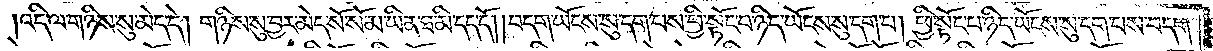འདི་ལ་གཉིས་སུ་མེད་དེ། གཉིས་སུ་བྱར་མེད་སོ་སོ་མ་ཡིན་ཐ་མི་དད་དོ། །བདག་ཡོངས་སུ་དག་པས་ཕྱི་སྟོང་པ་ཉིད་ཡོངས་སུ་དག་པ། ཕྱི་སྟོང་པ་ཉིད་ཡོངས་སུ་དག་པས་བདག་
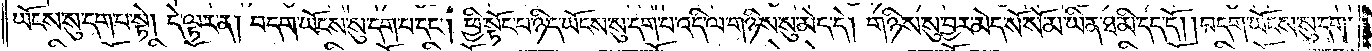ཡོངས་སུ་དག་པ་སྟེ། དེ་ལྟར་ན། བདག་ཡོངས་སུ་དག་པ་དང༌། ཕྱི་སྟོང་པ་ཉིད་ཡོངས་སུ་དག་པ་འདི་ལ་གཉིས་སུ་མེད་དེ། གཉིས་སུ་བྱར་མེད་སོ་སོ་མ་ཡིན་ཐ་མི་དད་དོ། །བདག་ཡོངས་སུ་དག་
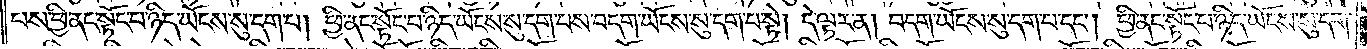པས་ཕྱི་ནང་སྟོང་པ་ཉིད་ཡོངས་སུ་དག་པ། ཕྱི་ནང་སྟོང་པ་ཉིད་ཡོངས་སུ་དག་པས་བདག་ཡོངས་སུ་དག་པ་སྟེ། དེ་ལྟར་ན། བདག་ཡོངས་སུ་དག་པ་དང༌། ཕྱི་ནང་སྟོང་པ་ཉིད་ཡོངས་སུ་དག་
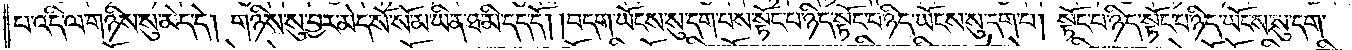པ་འདི་ལ་གཉིས་སུ་མེད་དེ། གཉིས་སུ་བྱར་མེད་སོ་སོ་མ་ཡིན་ཐ་མི་དད་དོ། །བདག་ཡོངས་སུ་དག་པས་སྟོང་པ་ཉིད་སྟོང་པ་ཉིད་ཡོངས་སུ་དག་པ། སྟོང་པ་ཉིད་སྟོང་པ་ཉིད་ཡོངས་སུ་དག་
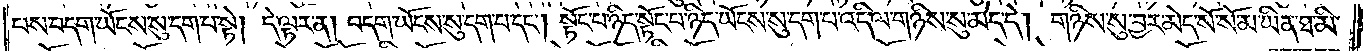པས་བདག་ཡོངས་སུ་དག་པ་སྟེ། དེ་ལྟར་ན། བདག་ཡོངས་སུ་དག་པ་དང༌། སྟོང་པ་ཉིད་སྟོང་པ་ཉིད་ཡོངས་སུ་དག་པ་འདི་ལ་གཉིས་སུ་མེད་དེ། གཉིས་སུ་བྱར་མེད་སོ་སོ་མ་ཡིན་ཐ་མི་
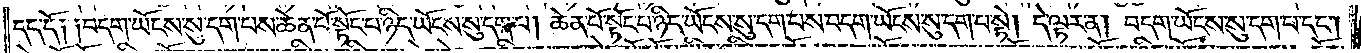དད་དོ། །བདག་ཡོངས་སུ་དག་པས་ཆེན་པོ་སྟོང་པ་ཉིད་ཡོངས་སུ་དག་པ། ཆེན་པོ་སྟོང་པ་ཉིད་ཡོངས་སུ་དག་པས་བདག་ཡོངས་སུ་དག་པ་སྟེ། དེ་ལྟར་ན། བདག་ཡོངས་སུ་དག་པ་དང༌།
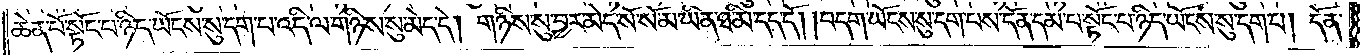ཆེན་པོ་སྟོང་པ་ཉིད་ཡོངས་སུ་དག་པ་འདི་ལ་གཉིས་སུ་མེད་དེ། གཉིས་སུ་བྱར་མེད་སོ་སོ་མ་ཡིན་ཐ་མི་དད་དོ། །བདག་ཡོངས་སུ་དག་པས་དོན་དམ་པ་སྟོང་པ་ཉིད་ཡོངས་སུ་དག་པ། དོན་
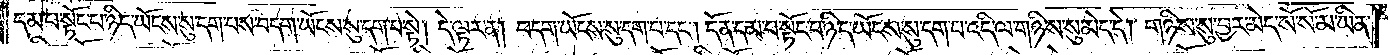དམ་པ་སྟོང་པ་ཉིད་ཡོངས་སུ་དག་པས་བདག་ཡོངས་སུ་དག་པ་སྟེ། དེ་ལྟར་ན། བདག་ཡོངས་སུ་དག་པ་དང༌། དོན་དམ་པ་སྟོང་པ་ཉིད་ཡོངས་སུ་དག་པ་འདི་ལ་གཉིས་སུ་མེད་དེ། གཉིས་སུ་བྱར་མེད་སོ་སོ་མ་ཡིན་
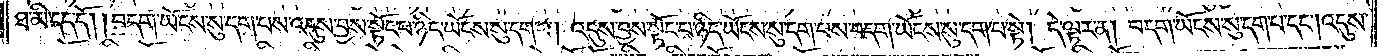ཐ་མི་དད་དོ། །བདག་ཡོངས་སུ་དག་པས་འདུས་བྱས་སྟོང་པ་ཉིད་ཡོངས་སུ་དག་པ། འདུས་བྱས་སྟོང་པ་ཉིད་ཡོངས་སུ་དག་པས་བདག་ཡོངས་སུ་དག་པ་སྟེ། དེ་ལྟར་ན། བདག་ཡོངས་སུ་དག་པ་དང༌། འདུས་
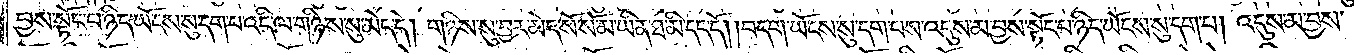བྱས་སྟོང་པ་ཉིད་ཡོངས་སུ་དག་པ་འདི་ལ་གཉིས་སུ་མེད་དེ། གཉིས་སུ་བྱར་མེད་སོ་སོ་མ་ཡིན་ཐ་མི་དད་དོ། །བདག་ཡོངས་སུ་དག་པས་འདུས་མ་བྱས་སྟོང་པ་ཉིད་ཡོངས་སུ་དག་པ། འདུས་མ་བྱས་
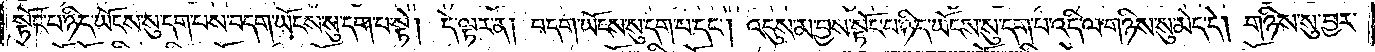སྟོང་པ་ཉིད་ཡོངས་སུ་དག་པས་བདག་ཡོངས་སུ་དག་པ་སྟེ། དེ་ལྟར་ན། བདག་ཡོངས་སུ་དག་པ་དང༌། འདུས་མ་བྱས་སྟོང་པ་ཉིད་ཡོངས་སུ་དག་པ་འདི་ལ་གཉིས་སུ་མེད་དེ། གཉིས་སུ་བྱར་
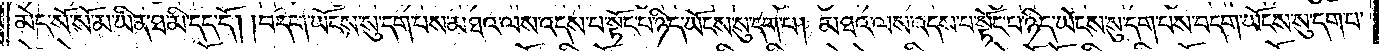མེད་སོ་སོ་མ་ཡིན་ཐ་མི་དད་དོ། །བདག་ཡོངས་སུ་དག་པས་མཐའ་ལས་འདས་པ་སྟོང་པ་ཉིད་ཡོངས་སུ་དག་པ། མཐའ་ལས་འདས་པ་སྟོང་པ་ཉིད་ཡོངས་སུ་དག་པས་བདག་ཡོངས་སུ་དག་པ་
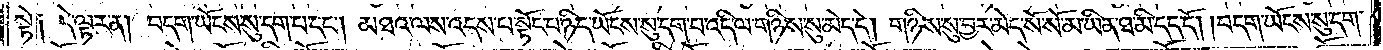སྟེ༑ དེ་ལྟར་ན། བདག་ཡོངས་སུ་དག་པ་དང༌། མཐའ་ཡས་འདས་པ་སྟོང་པ་ཉིད་ཡོངས་སུ་དག་པ་འདི་ལ་གཉིས་སུ་མེད་དེ། གཉིས་སུ་བྱར་མེད་སོ་སོ་མ་ཡིན་ཐ་མི་དད་དོ། །བདག་ཡོངས་སུ་དག་
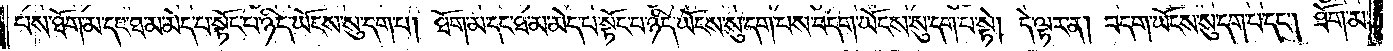པས་ཐོག་མ་དང་ཐ་མ་མེད་པ་སྟོང་པ་ཉིད་ཡོངས་སུ་དག་པ། ཐོག་མ་དང་ཐ་མ་མེད་པ་སྟོང་པ་ཉིད་ཡོངས་སུ་དག་པས་བདག་ཡོངས་སུ་དག་པ་སྟེ། དེ་ལྟར་ན། བདག་ཡོངས་སུ་དག་པ་དང༌། ཐོག་མ་
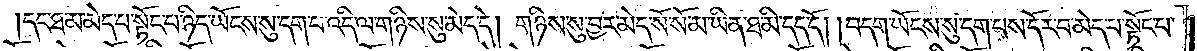དང་ཐ་མ་མེད་པ་སྟོང་པ་ཉིད་ཡོངས་སུ་དག་པ་འདི་ལ་གཉིས་སུ་མེད་དེ། གཉིས་སུ་བྱར་མེད་སོ་སོ་མ་ཡིན་ཐ་མི་དད་དོ། །བདག་ཡོངས་སུ་དག་པས་དོར་བ་མེད་པ་སྟོང་པ་
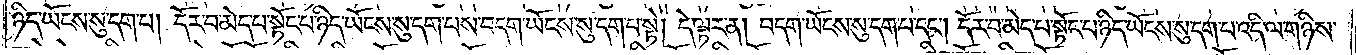ཉིད་ཡོངས་སུ་དག་པ། དོར་བ་མེད་པ་སྟོང་པ་ཉིད་ཡོངས་སུ་དག་པས་བདག་ཡོངས་སུ་དག་པ་སྟེ། དེ་ལྟར་ན། བདག་ཡོངས་སུ་དག་པ་དང༌། དོར་བ་མེད་པ་སྟོང་པ་ཉིད་ཡོངས་སུ་དག་པ་འདི་ལ་གཉིས་
